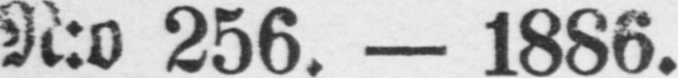N:o 256. — 1886.
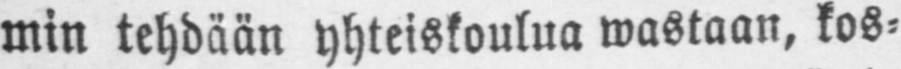min tehdään yhteiskoulua wastaan, kos-
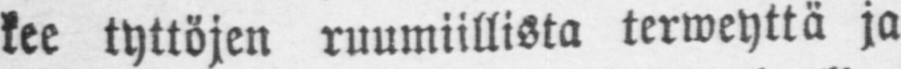kee tyttöjen ruumiillista terweyttä ja
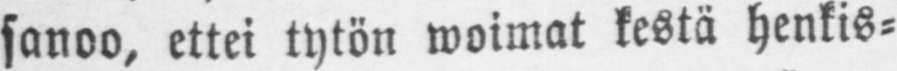sanoo, ettei tytön woimat kestä henkis-
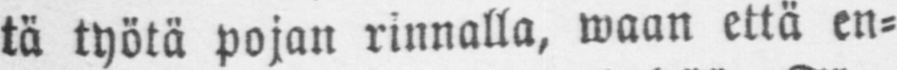tä työtä pojan rinnalla, waan että en-
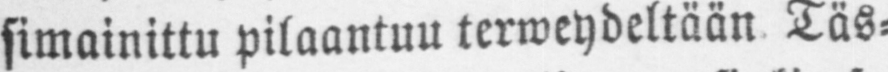simainittu pilaantuu terweydeltään. Täs-
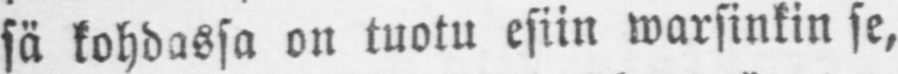sä kohdassa on tuotu esiin warsinkin se,
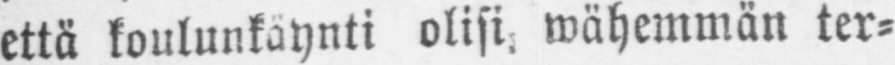että koulunkäynti olisi, wähemmän ter-
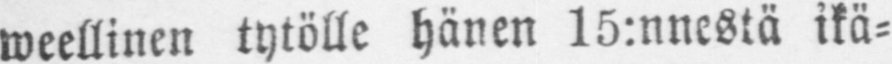weellinen tytölle hänen 15:nnestä ikä-
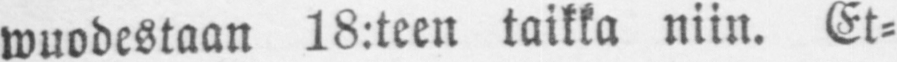wuodestaan 18:teen taikka niin. Et-
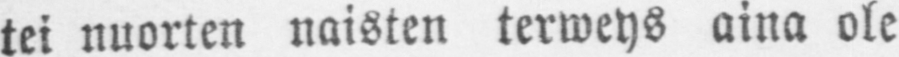tei nuorten naisten terweys aina ole
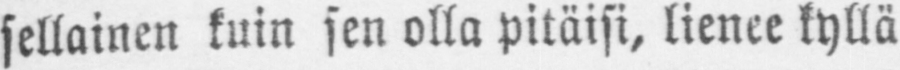sellainen kuin sen olla pitäisi, lienee kyllä
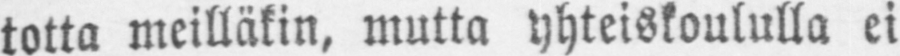totta meilläkin, mutta yhteiskoululla ei
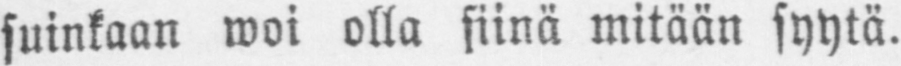suinkaan woi olla siinä mitään syytä.
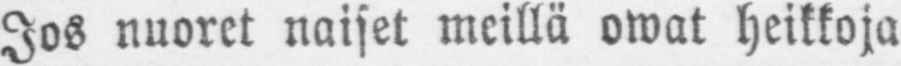Jos nuoret naiset meillä owat heikkoja
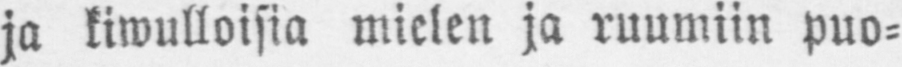ja kiwulloisia mielen ja ruumiin puo-
